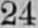24
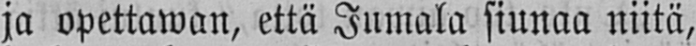ja opettawan, että Jumala siunaa niitä,
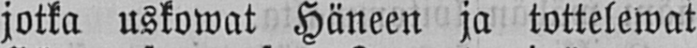jotka uskowat Häneen ja tottelewat
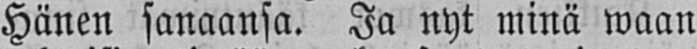Hänen sanaansa. Ja nyt minä waan
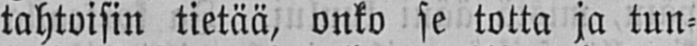tahtoisin tietää, onko se totta ja tun-
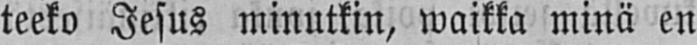teeko Jesus minutkin, waikka minä en
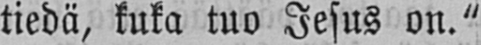tiedä, kuka tuo Jesus on."
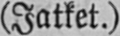(Jatket.).
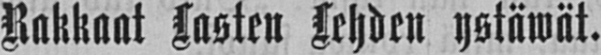Rakkaat Lasten Lehden ystäwät.
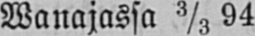Wanajassa 3/3 94.
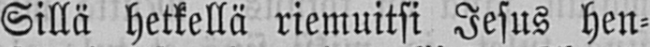Sillä hetkellä riemuitsi Jesus hen-
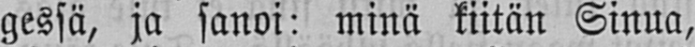gessä, ja sanoi: minä kiitän Sinua,
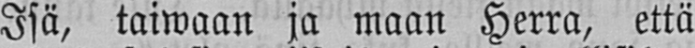Isä, taiwaan ja maan Herra, että
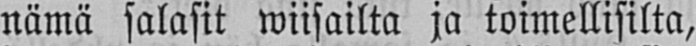nämä salasit wiisailta ja toimellisilta,
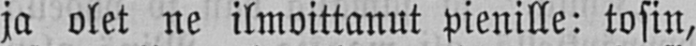ja olet ne ilmoittanut pienille: tosin,
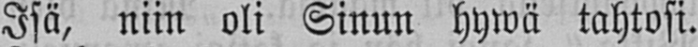Isä, niin oli Sinun hywä tahtosi.
